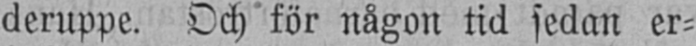deruppe. Och för någon tid sedan er-
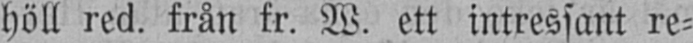höll red. från fr. W. ett intressant re-
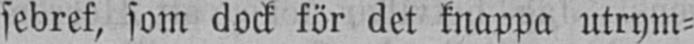sebref, som dock för det knappa utrym-
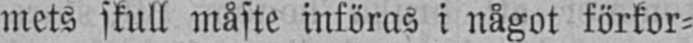mets skull måste införas i något förkor-
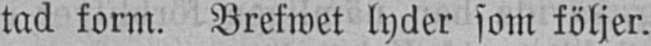tad korm. Brefwet lyder som följer.
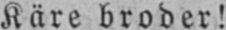Käre broder!
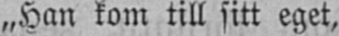„Han kom till sitt eget,
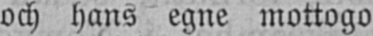och hans egne mottogo
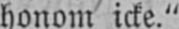honom icke."
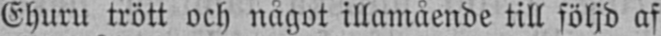Ehuru trött och något illamående till följd af
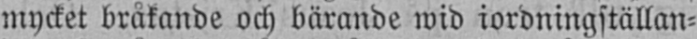mycket bråkande och bärande wid iordningställan-
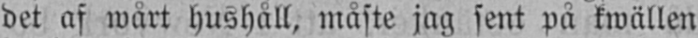det af wårt hushåll, måste jag sent på kwällen
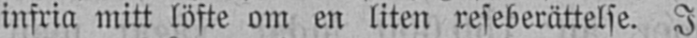infria mitt löfte om en liten reseberättelse. I
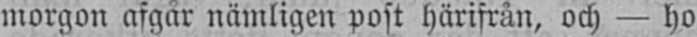morgon afgår nämligen post härifrån, och — ho
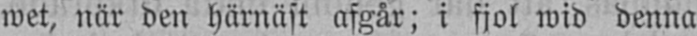wet, när den härnäst afgår; i fjol wid denna
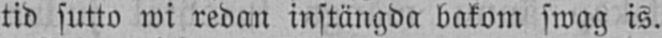tid sutto wi redan instängda bakom swag is.
